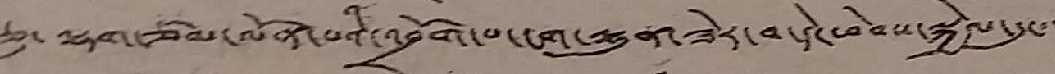ཅུ་ ལྷག་ཙམ་ལོན་པའི་འབྲོག་པ་ངག་ལྷུན་ཟེར་བ་དེ་ཕེབས་སྐྱེལ་དུ་་་
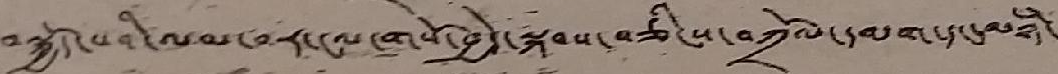བསྐྱོད་པའི་ལམ་བར་ངལ་གསོ་བྱེད་སྐབས་བཅིངས་བཀྲོལ་དམག་དང་མཉཾ་
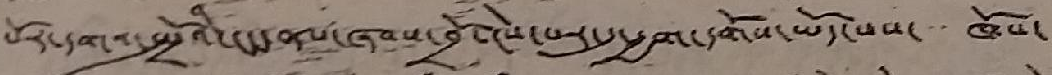སོར་དགའ་སྤྲོའི་ངང་ནས་ཞབས་བྲོ་ངེས་པར་དུ་རྒྱག་དགོས་ཡོད་པས་ ཁོས་
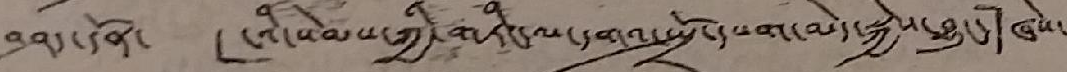བཤད་དོན་ "ངའི་སེམས་ཀྱི་གཏིང་ལ་དགའ་སྤྲོ་དཔག་མེད་སྐྱེས་བྱུང་" ཞེས་
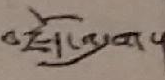བརྗོད་འདུག་།
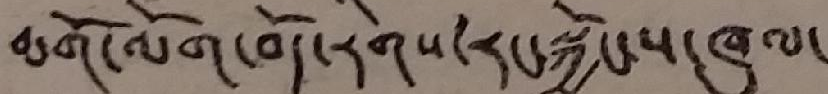མགོ་ལོག་བོད་རིགས་རང་སྐྱོང་ས་ཁུལ་
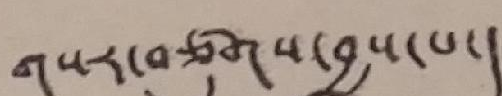གསར་བཙུགས་བྱས་པ་།
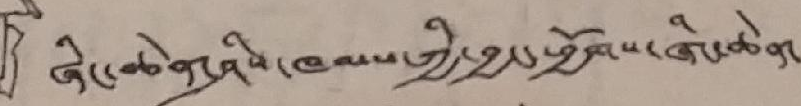ཞིང་ཆེན་ཤིས་ཁམས་ཀྱི་བྱང་ཕྱོགས་ཞིང་ཆེན་
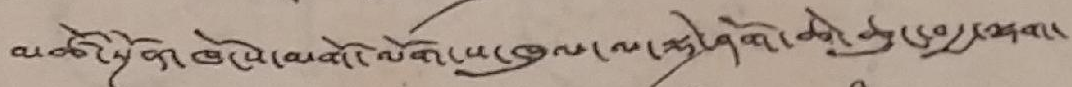མཚོ་སྔོན་ཁོངས་མགོ་ལོག་ས་ཁུལ་ལྡེ་ཤོག་ཆེ་ཆུང་བརྒྱ་ལྷག་
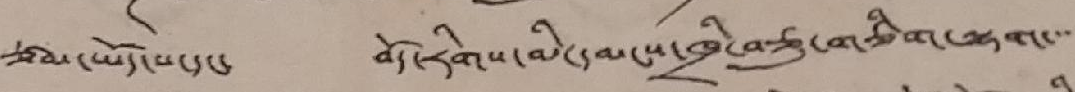ཙམ་ཡོད་པ་དང་ བོད་རིགས་མི་དམངས་ཁྲི་བཅུ་གཅིག་ལྷག་་་་
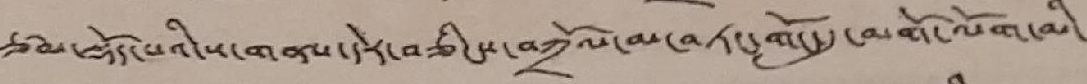ཙམ་སྡོད་པའི་ས་གནས་དེར་བཅིངས་བཀྲོལ་མ་བཏང་གོང་དུ་མགོ་ལོག་མི་
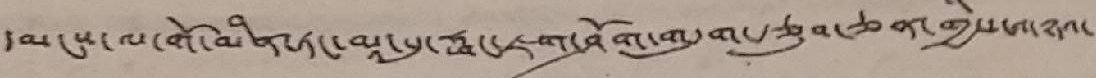དམངས་ལ་གོ་མིན་ཏང་མ་པུ་ཧྥང་ཇག་ཤོག་གདུག་རྩུབ་ཅན་གྱིས་གཉའ་
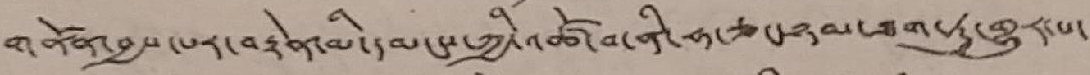གནོན་བྱས་པར་བརྟེན་མི་དམངས་ཀྱི་འཚོ་བ་ནི་ཧ་ཅང་ཉམ་ཐག་ཏུ་གྱུར་པ་
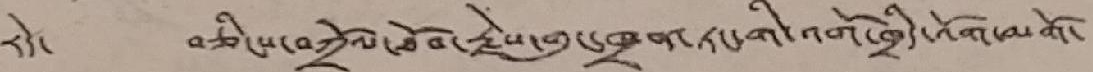རེད་ བཅིངས་བཀྲོལ་ཐོབ་རྗེས་གུང་ཁྲན་ཏང་གི་འགོ་ཁྲིད་འོག་མགོ་
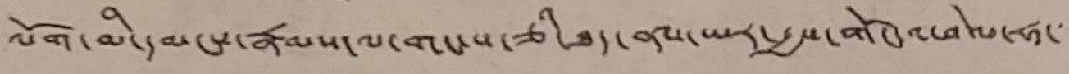ལོག་མི་དམངས་རྣམས་ལ་གང་ས་ཅི་ཐད་ནས་ཡར་རྒྱས་གོང་འཕེལ་ཧ་་་
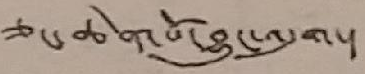ཅང་ཆེན་པོ་བྱུང་འདུག་།
